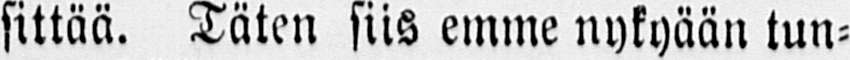sittää. Täten siis emme nykyään tun-
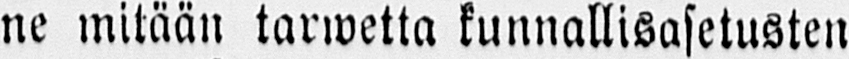ne mitään tarwetta kunnallisasetusten
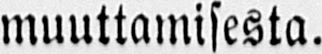muuttamisesta.
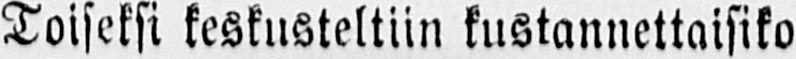Toiseksi keskusteltiin kustannettaisiko
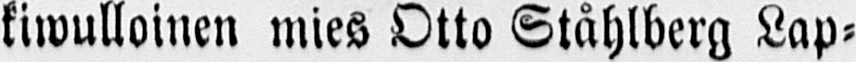kiwulloinen mies Otto Ståhlberg Lap-
